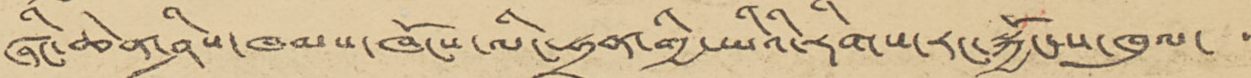ཞིང་ཆེན་ཤིས་ཁམས་ཁོངས་ལིང་ཧྲཱན་གྱི་ཡིའི་རིགས་རང་སྐྱོང་ས་ཁུལ་ ་་
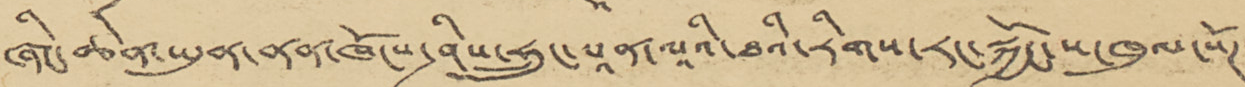ཞིང་ཆེན་ཡུན་ནན་ཁོངས་ཤིས་ཧྲུང་པཱན་ལའི་ཐའི་རིགས་རང་སྐྱོང་ས་ཁུལ་སོཊ་
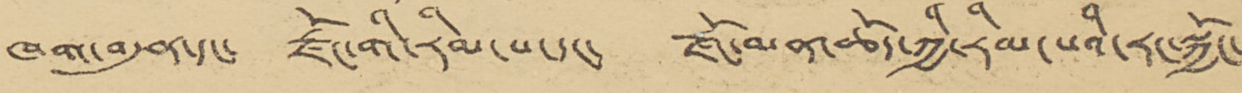ཁག་བདུན་དང་ རྫོང་གི་རིམ་པ་དང་ རྫོང་མན་ཆོད་ཀྱི་རིམ་པའི་རང་སྐྱོང་
